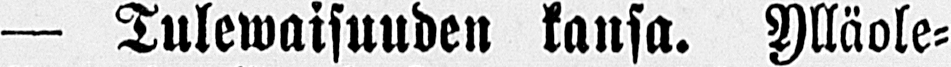— Tulewaisuuden kansa. Ylläole-
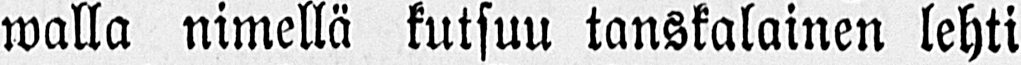walla nimellä kutsuu tanskalainen lehti
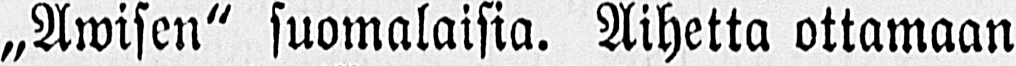„Awisen" suomalaisia. Aihetta ottamaan
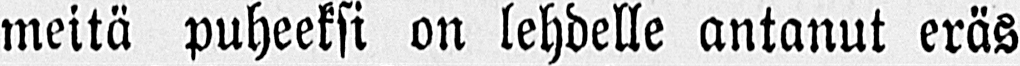meitä puheeksi on lehdelle antanut eräs
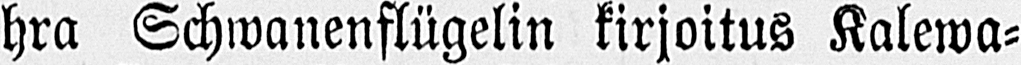hra Schwanenflügelin kirjoitus Kalewa-
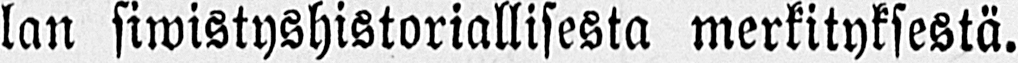lan siwistyshistoriallisesta merkityksestä.
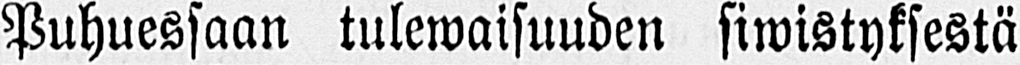Puhuessaan tulewaisuuden siwistyksestä
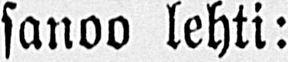sanoo lehti:
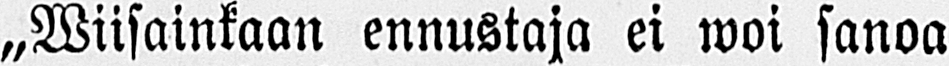„Wiisainkaan ennustaja ei woi sanoa
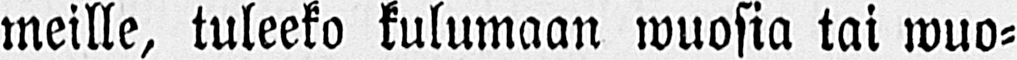meille, tuleeko kulumaan wuosia tai wuo-
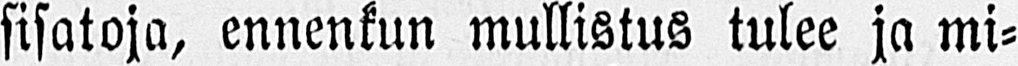sisatoja, ennenkun mullistus tulee ja mi-
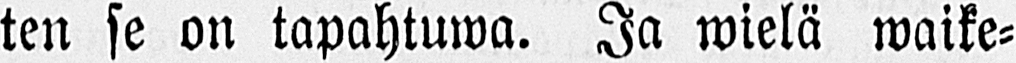ten se on tapahtuwa. Ja wielä waike-
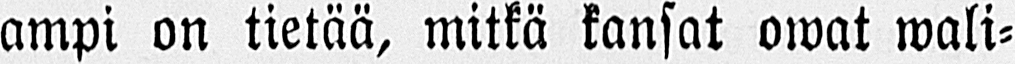ampi on tietää, mitkä kansat owat wali-
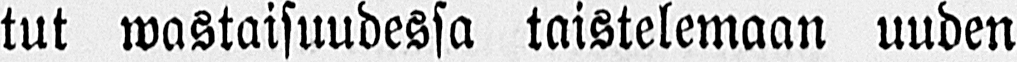tut wastaisuudessa taistelemaan uuden
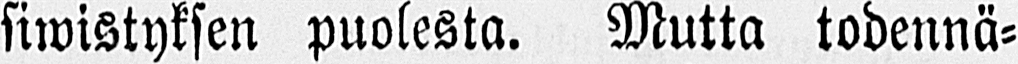siwistyksen puolesta. Mutta todennä-
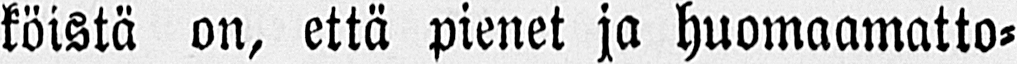köistä on, että pienet ja huomaamatto-
